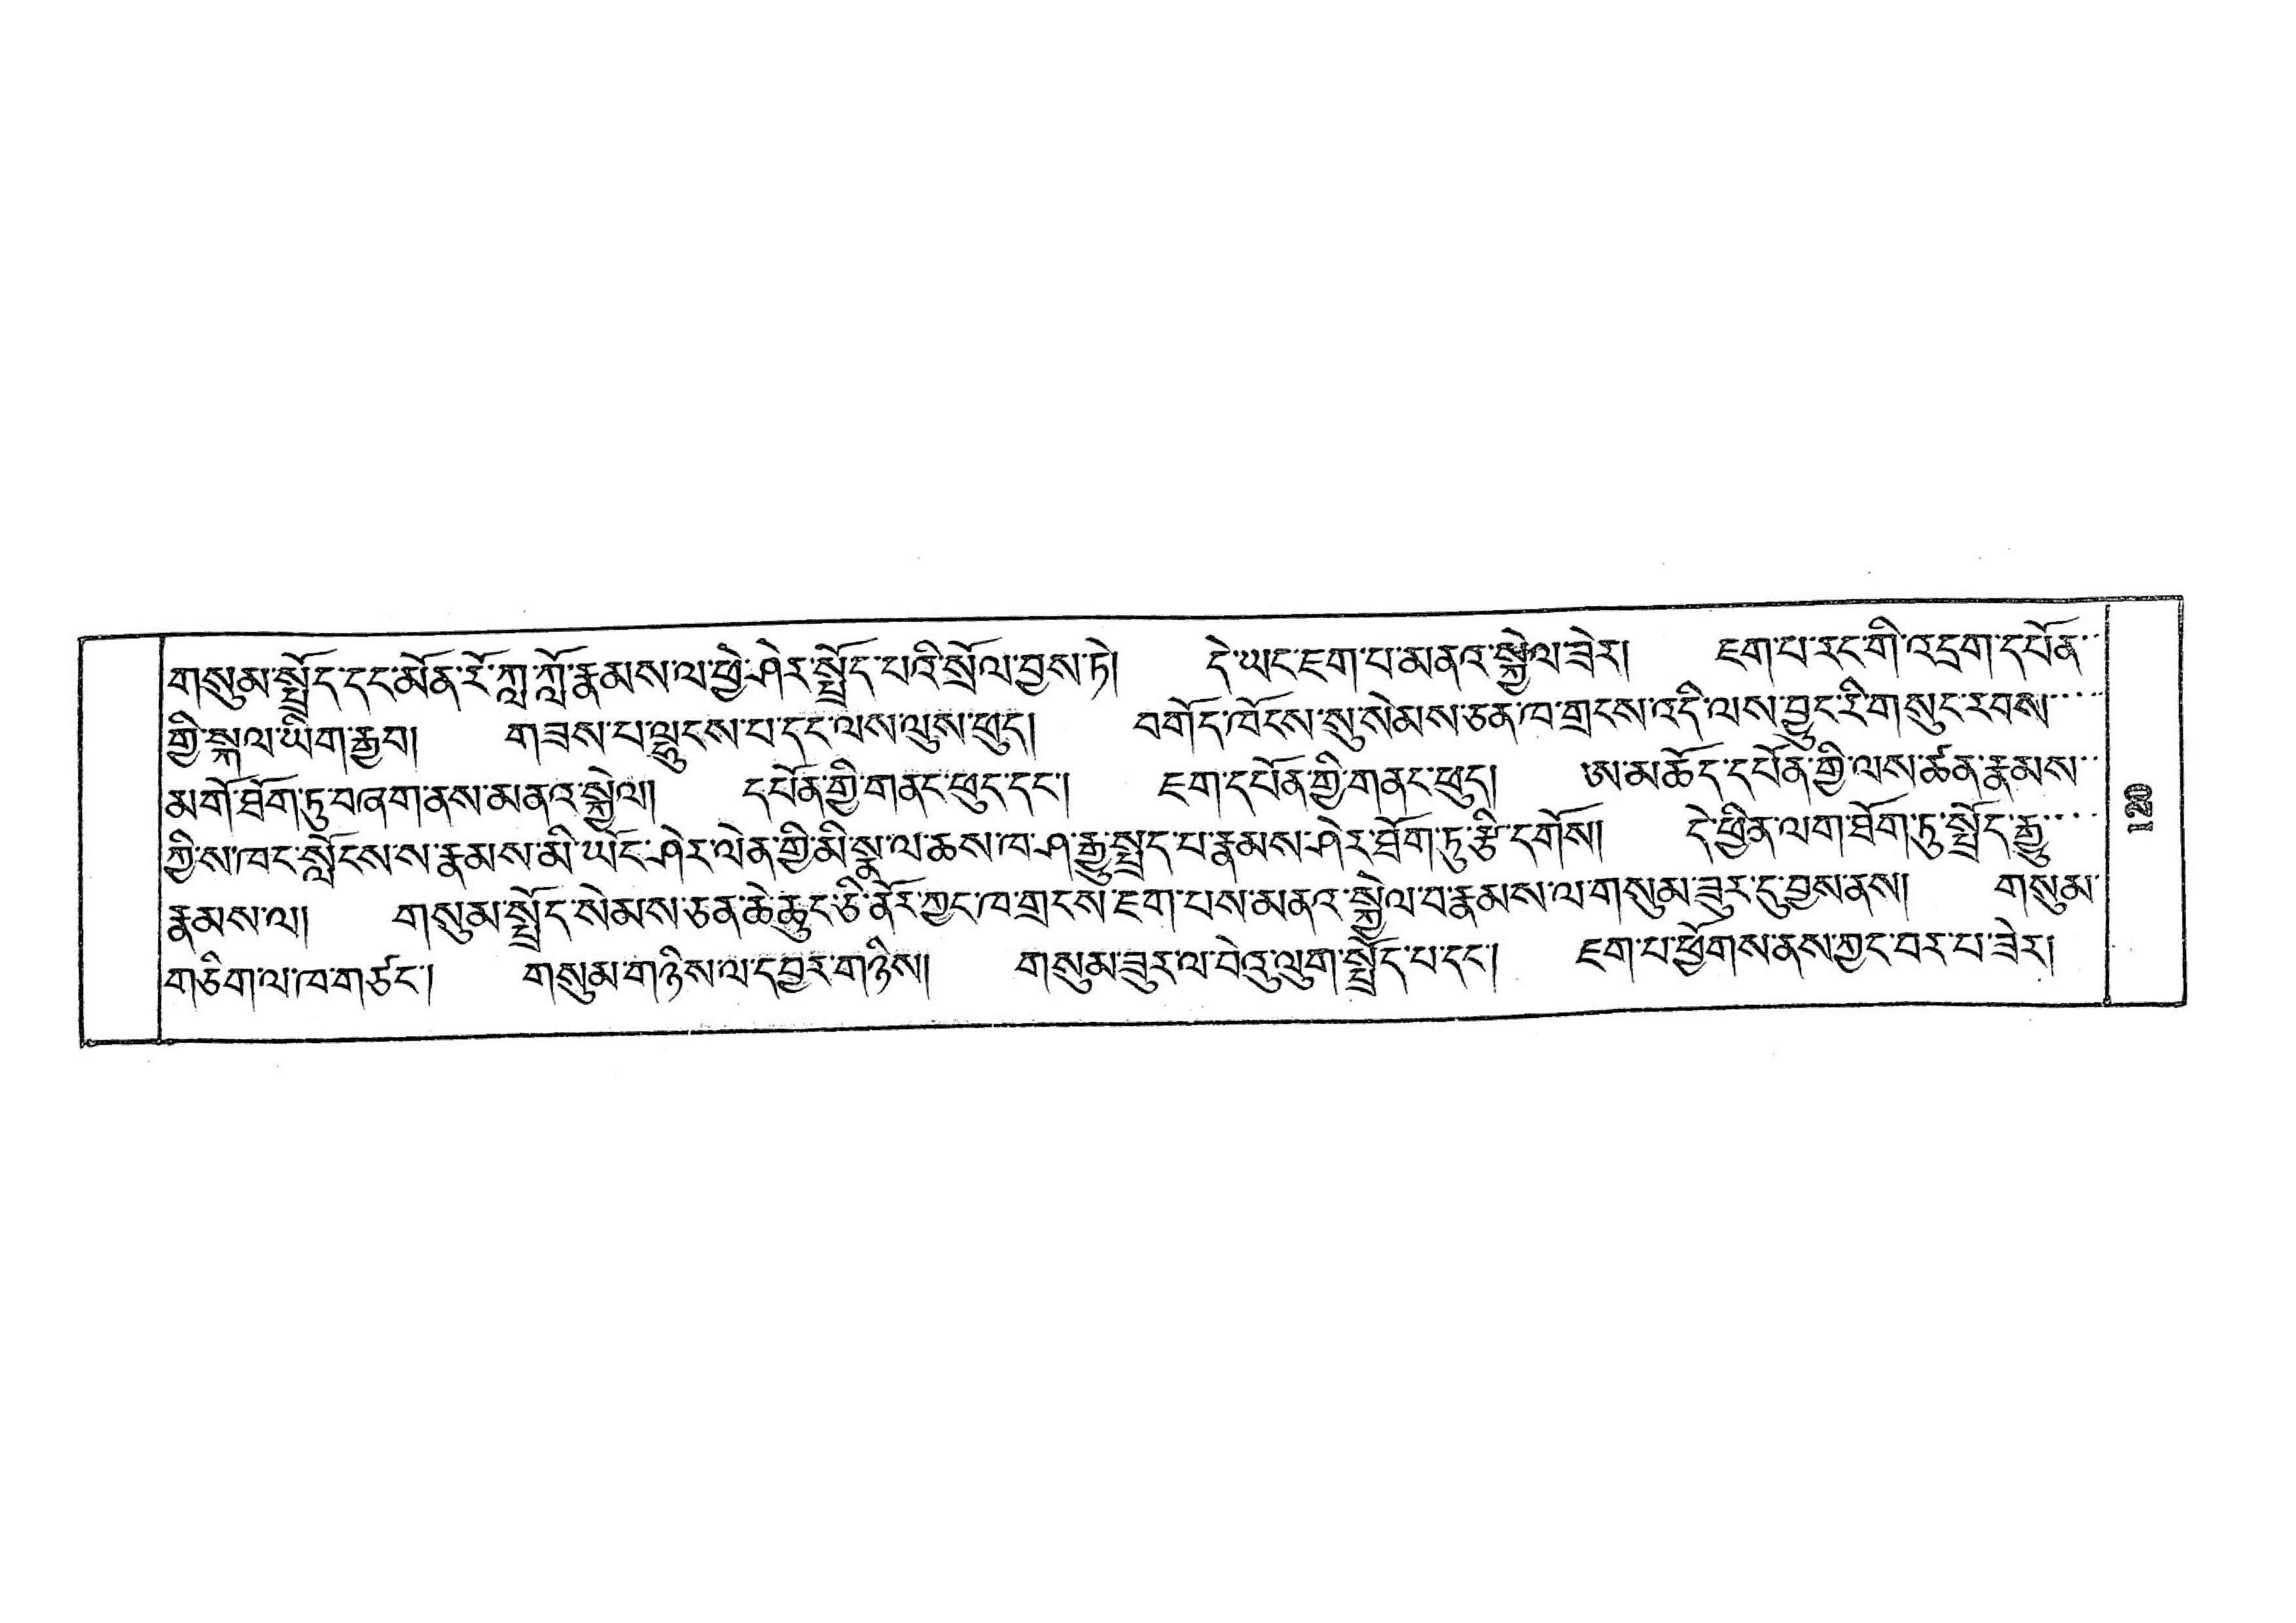གསུམ་སྤྲོད་དང་མོན་རོ་ཀླ་ཀློ་རྣམས་ལ་ཕྱེ་ཤེར་སྤྲོད་པའི་སྲོལ་བྱས་ཏེ། དེ་ཡང་ཇག་པ་མནའ་སྐྱེལ་ཟེར། ཇག་པ་རང་གི་འདྲག་དཔོན་་
གྱི་སྐས་ཡིག་རྒྱབ། གཟས་པ་ལྷུངས་པ་དང་ལས་ལུས་ཕུད། བགོད་ཁོངས་སུ་སེམས་ཅན་ཁ་གྲངས་འདི་ལས་བྱུང་རི་གསུང་རབས་་་་་
མགོ་ཐོག་ཏུ་བཞག་ནས་མནའ་སྐྱེལ། དཔོན་གྱི་གནང་ཕུད་དང་། ཇག་དཔོན་གྱི་གནང་ཕུད། ཨ་མཆོད་དཔོན་གྱི་ལས་ཚན་རྣམས་་
ཀྱིས་ཁང་སློངསས་རྣམས་མི་ཡོང་ཤེར་ལེན་གྱི་མི་སྣ་ལ་ཆས་ཁ་ཤ་རྒྱུ་སྤྲད་པ་རྣམས་ཤེར་ཐོག་ཏུ་རྩི་དགོས། དེ་ཕྱིན་ལག་ཐོག་ཏུ་སྤྲོད་རྒྱུ་་་་
རྣམས་ལ། གསུམ་སྤྲོད་སེམས་ཅན་ཆེ་ཆུང་ཅི་ནོར་ཀྱང་ཁ་གྲངས་ཇག་པས་མནའ་སྐྱེལ་བ་རྣམས་ལ་གསུམ་ཟུར་དུ་བྱས་ནས། གསུམ་
གཅིག་ལ་ཁ་གཙང་། གསུམ་གཉིསལ་དབྱར་གཉིས། གསུམ་ཟུར་ལ་བེའུ་ལུག་སྤྲོད་པ་དང་། ཇག་པ་ཕྱོགས་ནས་ཀྱང་བར་པ་ཟེར།
